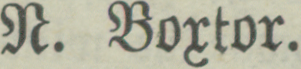N. Boxtor.
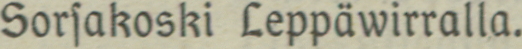Sorsakoski Leppäwirralla.
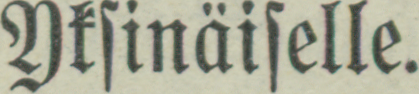Yksinäiselle.
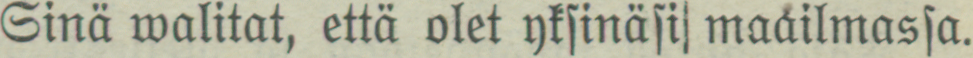Sinä walitat, että olet yksinäsi maailmassa.
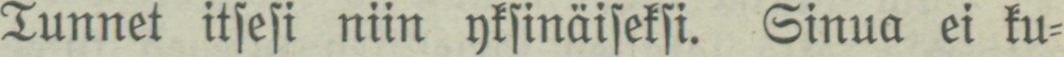Tunnet itsesi niin yksinäiseksi. Sinua ei ku-
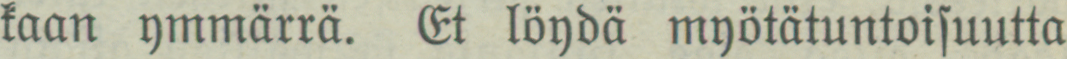kaan ymmärrä. Et löydä myötätuntoisuutta
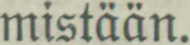mistään.
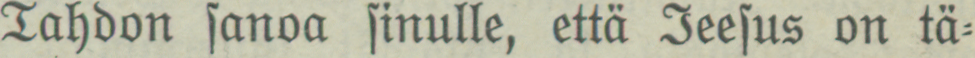Tahdon sanoa sinulle, että Jeesus on tä-
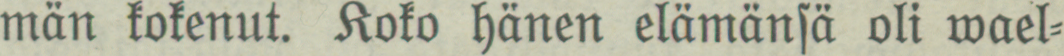män kokenut. Koko hänen elämänsä oli wael-
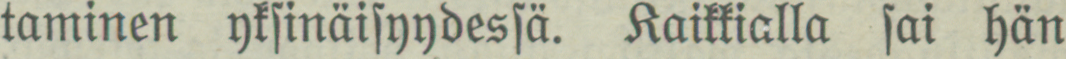taminen yksinäisyydessä. Kaikkialla sai hän
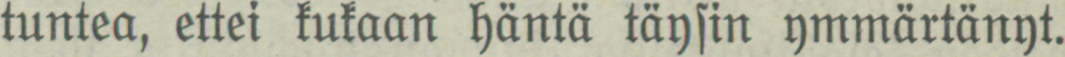tuntea, ettei kukaan häntä täysin ymmärtänyt.
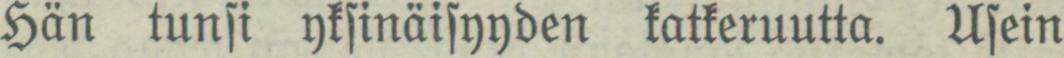Hän tunsi yksinäisyyden katkeruutta. Usein
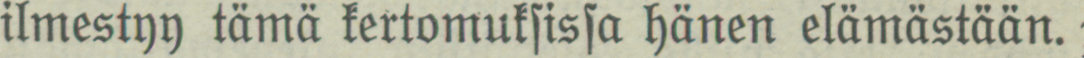ilmestyy tämä kertomuksissa hänen elämästään.
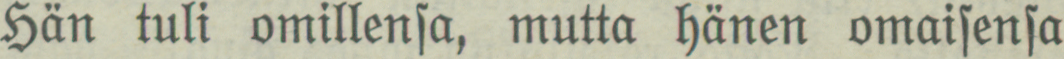Hän tuli omillensa, mutta hänen omaisensa
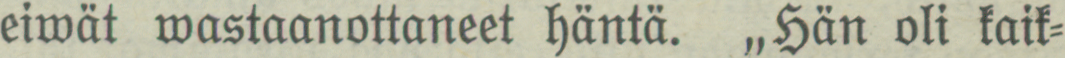eiwät wastaanottaneet häntä. „Hän oli kaik-
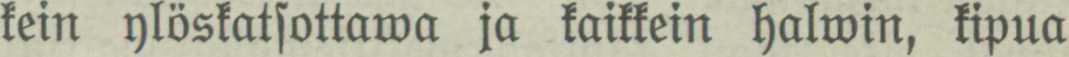kein ylöskatsottawa ja kaikkein halwin, kipua
